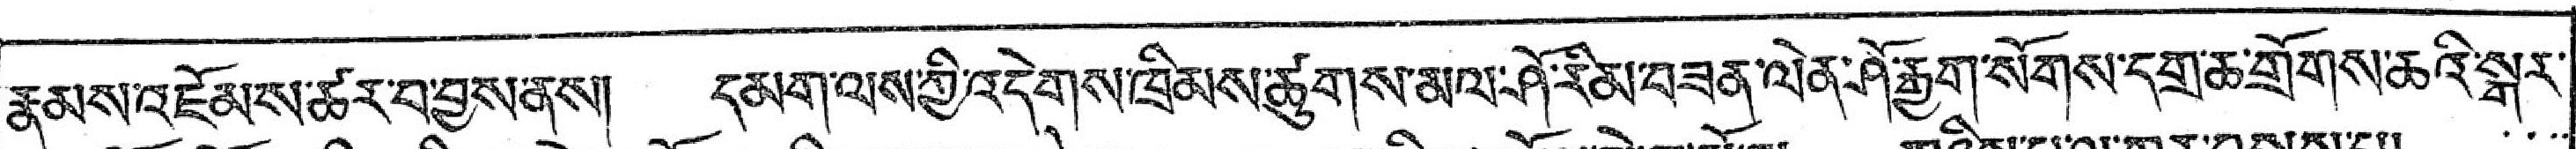རྣམས་འཇོམས་ཚར་བ་བྱས་ནས། དམག་ལས་ཀྱི་འདེགས་ཁྲིམས་ཚུགས་མལ་སོ་རིམ་བཟན་ལེན་ཤོ་རྒྱག་སོགས་དགྲ་ཆ་གྲོགས་ཆའི་སྒར་
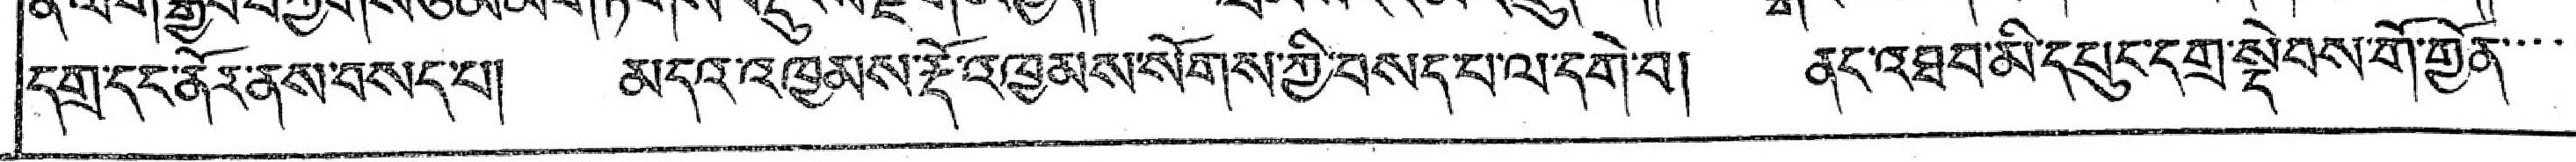དགྲ་དང་ནོར་ནས་བསད་པ། མདའ་འཁྱམས་རྡོ་འཁྱམས་སོགས་ཀྱི་བསད་པ་ལ་དགེ་བ། ནང་འཐབ་མི་དཔུང་དགྲ་སྡེབས་གོ་གྱོན་་་་
